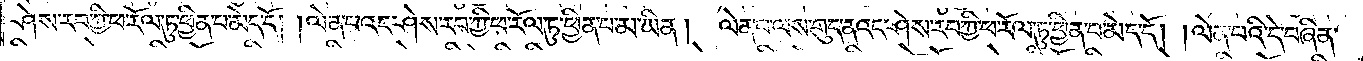ཤེས་རབ་ཀྱི་ཕ་རོལ་ཏུ་ཕྱིན་པ་མེད་དོ། །ལེན་པའང་ཤེས་རབ་ཀྱི་ཕ་རོལ་ཏུ་ཕྱིན་པ་མ་ཡིན། ལེན་པ་ལས་གུད་ནའང་ཤེས་རབ་ཀྱི་ཕ་རོལ་ཏུ་ཕྱིན་པ་མེད་དོ། །ལེན་པའི་དེ་བཞིན་
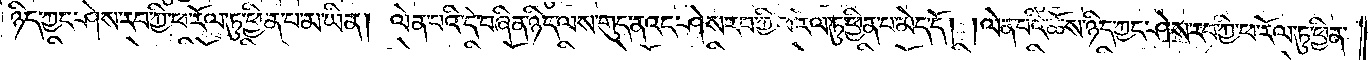ཉིད་ཀྱང་ཤེས་རབ་ཀྱི་ཕ་རོལ་ཏུ་ཕྱིན་པ་མ་ཡིན། ལེན་པའི་དེ་བཞིན་ཉིད་ལས་གུད་ནའང་ཤེས་རབ་ཀྱི་ཕ་རོལ་ཏུ་ཕྱིན་པ་མེད་དོ། །ལེན་པའི་ཆོས་ཉིད་ཀྱང་ཤེས་རབ་ཀྱི་ཕ་རོལ་ཏུ་ཕྱིན་
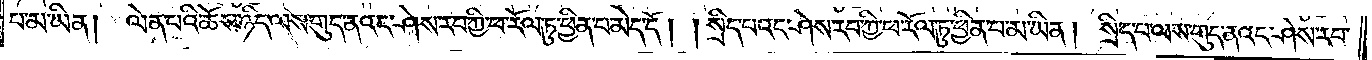པ་མ་ཡིན། ལེན་པའི་ཆོས་ཉིད་ལས་གུད་ནའང་ཤེས་རབ་ཀྱི་ཕ་རོལ་ཏུ་ཕྱིན་པ་མེད་དོ། །སྲིད་པའང་ཤེས་རབ་ཀྱི་ཕ་རོལ་ཏུ་ཕྱིན་པ་མ་ཡིན། སྲིད་པ་ལས་གུད་ནའང་ཤེས་རབ་
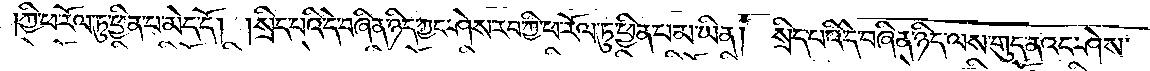ཀྱི་ཕ་རོལ་ཏུ་ཕྱིན་པ་མེད་དོ། །སྲིད་པའི་དེ་བཞིན་ཉིད་ཀྱང་ཤེས་རབ་ཀྱི་ཕ་རོལ་ཏུ་ཕྱིན་པ་མ་ཡིན། སྲིད་པའི་དེ་བཞིན་ཉིད་ལས་གུད་ནའང་ཤེས་
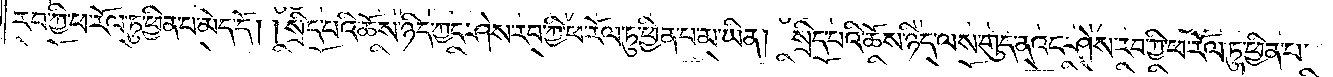རབ་ཀྱི་ཕ་རོལ་ཏུ་ཕྱིན་པ་མེད་དོ། །སྲིད་པའི་ཆོས་ཉིད་ཀྱང་ཤེས་རབ་ཀྱི་ཕ་རོལ་ཏུ་ཕྱིན་པ་མ་ཡིན། སྲིད་པའི་ཆོས་ཉིད་ལས་གུད་ནའང་ཤེས་རབ་ཀྱི་ཕ་རོལ་ཏུ་ཕྱིན་པ་
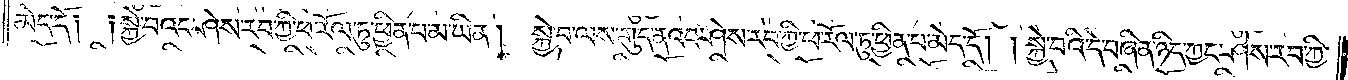མེད་དོ། །སྐྱེ་བའང་ཤེས་རབ་ཀྱི་ཕ་རོལ་ཏུ་ཕྱིན་པ་མ་ཡིན། སྐྱེ་བ་ལས་གུད་ནའང་ཤེས་རབ་ཀྱི་ཕ་རོལ་ཏུ་ཕྱིན་པ་མེད་དོ། །སྐྱེ་བའི་དེ་བཞིན་ཉིད་ཀྱང་ཤེས་རབ་ཀྱི་
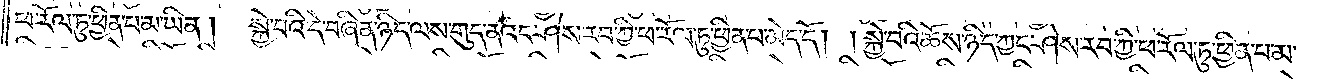ཕ་རོལ་ཏུ་ཕྱིན་པ་མ་ཡིན། སྐྱེ་བའི་དེ་བཞིན་ཉིད་ལས་གུད་ནའང་ཤེས་རབ་ཀྱི་ཕ་རོལ་ཏུ་ཕྱིན་པ་མེད་དོ། །སྐྱེ་བའི་ཆོས་ཉིད་ཀྱང་ཤེས་རབ་ཀྱི་ཕ་རོལ་ཏུ་ཕྱིན་པ་མ་
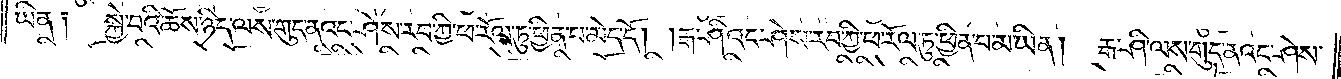ཡིན། སྐྱེ་བའི་ཆོས་ཉིད་ལས་གུད་ནའང་ཤེས་རབ་ཀྱི་ཕ་རོལ་ཏུ་ཕྱིན་པ་མེད་དོ། །རྒ་ཤིའང་ཤེས་རབ་ཀྱི་ཕ་རོལ་ཏུ་ཕྱིན་པ་མ་ཡིན། རྒ་ཤི་ལས་གུད་ནའང་ཤེས་
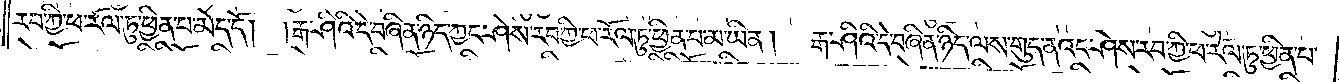རབ་ཀྱི་ཕ་རོལ་ཏུ་ཕྱིན་པ་མེད་དོ། །རྒ་ཤིའི་དེ་བཞིན་ཉིད་ཀྱང་ཤེས་རབ་ཀྱི་ཕ་རོལ་ཏུ་ཕྱིན་པ་མ་ཡིན། རྒ་ཤིའི་དེ་བཞིན་ཉིད་ལས་གུད་ནའང་ཤེས་རབ་ཀྱི་ཕ་རོལ་ཏུ་ཕྱིན་པ་
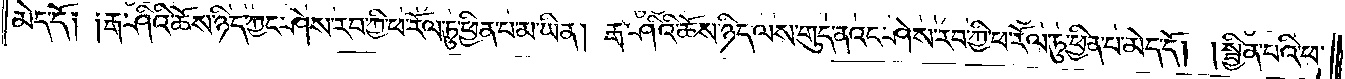མེད་དོ། །རྒ་ཤིའི་ཆོས་ཉིད་ཀྱང་ཤེས་རབ་ཀྱི་ཕ་རོལ་ཏུ་ཕྱིན་པ་མ་ཡིན། རྒ་ཤིའི་ཆོས་ཉིད་ལས་གུད་ནའང་ཤེས་རབ་ཀྱི་ཕ་རོལ་ཏུ་ཕྱིན་པ་མེད་དོ། །སྦྱིན་པའི་ཕ་
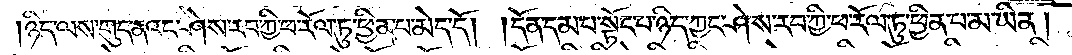ཉིད་ལས་གུད་ནའང་ཤེས་རབ་ཀྱི་ཕ་རོལ་ཏུ་ཕྱིན་པ་མེད་དོ། །དོན་དམ་པ་སྟོང་པ་ཉིད་ཀྱང་ཤེས་རབ་ཀྱི་ཕ་རོལ་ཏུ་ཕྱིན་པ་མ་ཡིན། དོན་
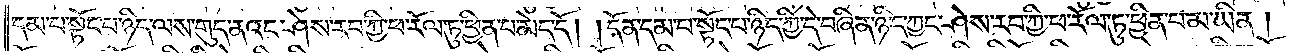དམ་པ་སྟོང་པ་ཉིད་ལས་གུད་ནའང་ཤེས་རབ་ཀྱི་ཕ་རོལ་ཏུ་ཕྱིན་པ་མེད་དོ། །དོན་དམ་པ་སྟོང་པ་ཉིད་ཀྱི་དེ་བཞིན་ཉིད་ཀྱང་ཤེས་རབ་ཀྱི་ཕ་རོལ་ཏུ་ཕྱིན་པ་མ་ཡིན།
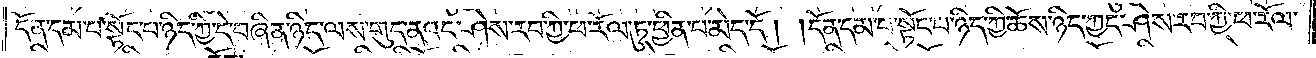དོན་དམ་པ་སྟོང་པ་ཉིད་ཀྱི་དེ་བཞིན་ཉིད་ལས་གུད་ནའང་ཤེས་རབ་ཀྱི་ཕ་རོལ་ཏུ་ཕྱིན་པ་མེད་དོ། །དོན་དམ་པ་སྟོང་པ་ཉིད་ཀྱི་ཆོས་ཉིད་ཀྱང་ཤེས་རབ་ཀྱི་ཕ་རོལ་
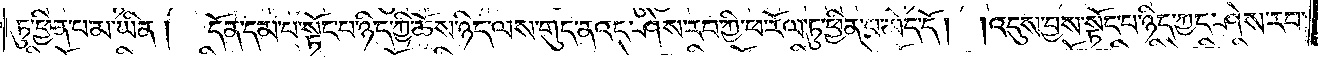ཏུ་ཕྱིན་པ་མ་ཡིན། དོན་དམ་པ་སྟོང་པ་ཉིད་ཀྱི་ཆོས་ཉིད་ལས་གུད་ནའང་ཤེས་རབ་ཀྱི་ཕ་རོལ་ཏུ་ཕྱིན་པ་མེད་དོ། །འདུས་བྱས་སྟོང་པ་ཉིད་ཀྱང་ཤེས་རབ་
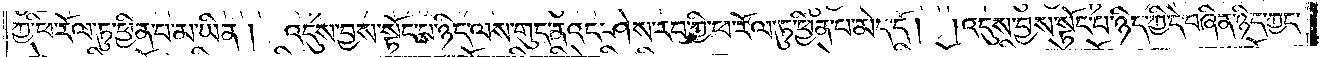ཀྱི་ཕ་རོལ་ཏུ་ཕྱིན་པ་མ་ཡིན། འདུས་བྱས་སྟོང་པ་ཉིད་ལས་གུད་ནའང་ཤེས་རབ་ཀྱི་ཕ་རོལ་ཏུ་ཕྱིན་པ་མེད་དོ། །འདུས་བྱས་སྟོང་པ་ཉིད་ཀྱི་དེ་བཞིན་ཉིད་ཀྱང་
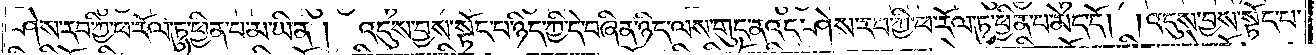ཤེས་རབ་ཀྱི་ཕ་རོལ་ཏུ་ཕྱིན་པ་མ་ཡིན། འདུས་བྱས་སྟོང་པ་ཉིད་ཀྱི་དེ་བཞིན་ཉིད་ལས་གུད་ནའང་ཤེས་རབ་ཀྱི་ཕ་རོལ་ཏུ་ཕྱིན་པ་མེད་དོ། །འདུས་བྱས་སྟོང་པ་
